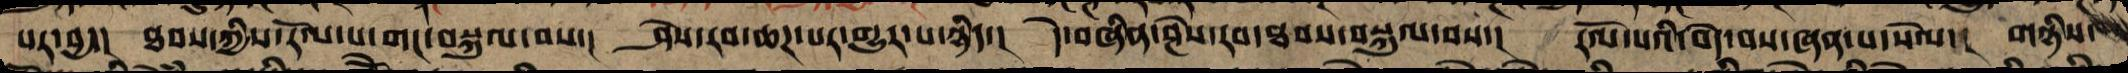པར་བྱ།    ཐབས་ཀྱིས་རོལ་པ་གང་བསྐུལ་བས།   ཤེས་རབ་ཆཌ་པར་གྱུར་པ་ཉིད།   དེ་བཞིན་ཤེས་རབ་ཐབས་བསྐུལ་བས།   རོལ་པའི་བདེ་བས་ཞན་པ་སེལ།   གཉིས་
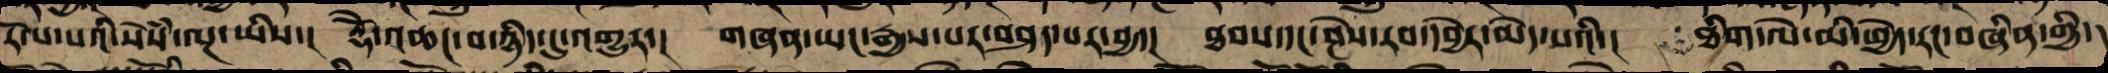རོལ་པའི་སེཾས་ལྔ་ཡིས་། རྡོེ་འཆང་བ་ཉིད་དུ་འགྱུར་། གཞན་ཡང་རྒྱས་པར་བཤད་པར་བྱ་། ཐབས་དང་ཤེས་རབ་དབྱེར་མེད་པའི་། ཐིག་ལེ་མི་ཕྱེད་རང་བཞིན་གྱི་།
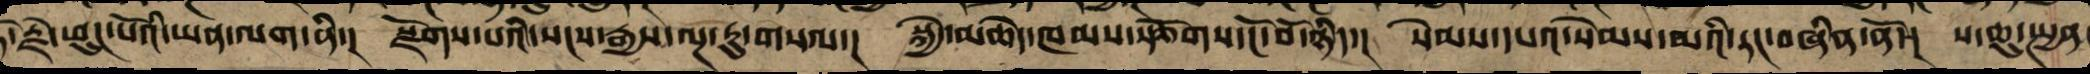རྡོ་རྗེ་ཕུང་པོའི་ཡན་ལག་ནི་། སྫོགས་པའི་སངས་རྒྱས་ལྔ་རུ་གསལ་། སྐྱེ་མཆེད་ཁམས་རྩོགས་ངོ་བོ་ཉིད་། སེམས་དཔའ་སེམས་མའི་རང་བཞིན་ནོ་། ས་ཆུ་སྤྱན་
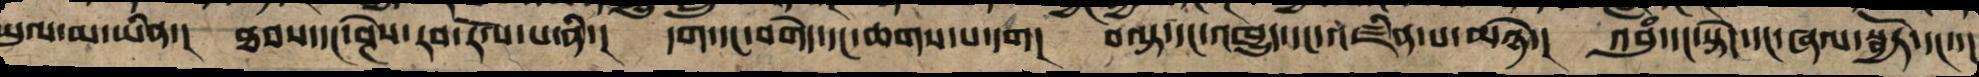ཡུལ་མ་ཡིན་། ཐབས་དང་ཤེས་རབ་རོལ་པ་ནི་། དགའ་དང་བགེཌ་དང་ཆགས་པ་དག།  བལྟ་དང་འཁྱུད་དང་འཛིན་པ་མཉེ་།  འབུཾ་དང་སྟེང་དང་ཞལ་སྦྱོར་དང་་།
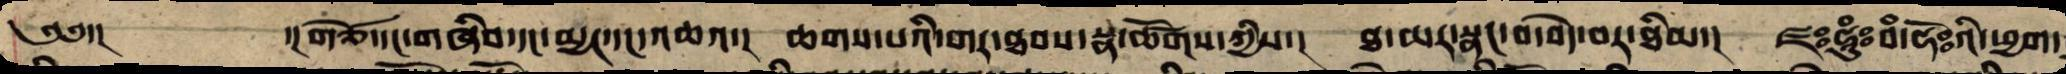༄༅་།  ་།གཙོ་དང་གཞིབ་དང་མྱང་དང་འཆའ་། ཆགས་པའི་གར་ཐབས་སྣ་ཚོགས་ཀྱིས་། ཐ་མལ་སྣང་བ་བདེ་བར་ཐིམ་། ཛཿཧཱུྃ་བཾ་ཧོཿའི་ཕྱག་
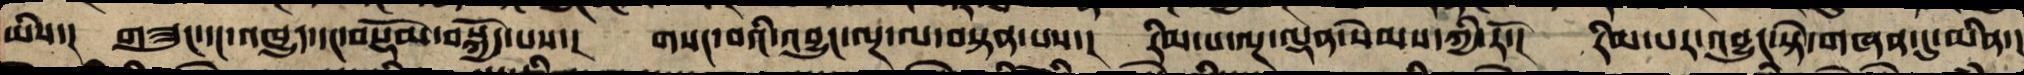ཡིས་། བཟུང་དང་འཁྱུད་དང་བསྡོམས་བསྐྱོད་པས་། གསང་བའི་འབྱུང་ལྔ་ལ་བརྟེན་པས་། རིམ་པ་ལྔ་ལྡན་སེམས་ཀྱི་རོ་། རིམ་པར་འབྱུང་སྟེ་གཞན་དུ་མིན་།
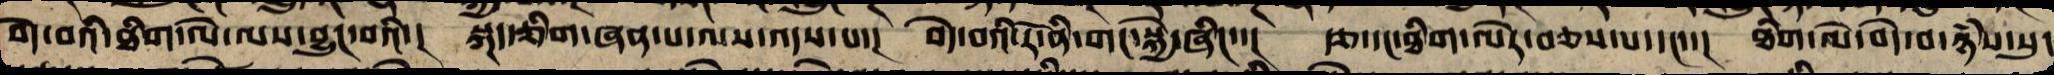བདེ་བའི་ཐིག་ལེ་ལས་བྱུང་བའི་། སྐད་ཅིག་ཞེན་པ་ལས་འདས་པ་། བདེ་བའི་རོ་ནི་གང་སྐྱེ་ཞིང་་། རྩ་དང་ཐིག་ལེར་བཅས་པ་དང་་། ཐིག་ལེའི་བདེ་བ་ཉཾས་སུ་
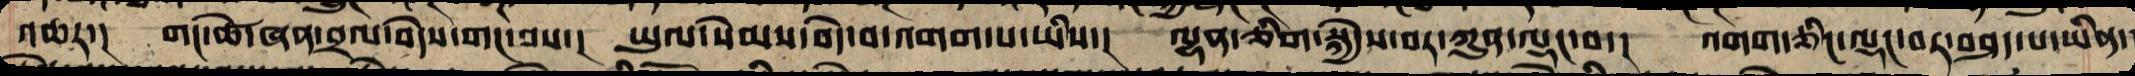འཆར་། གང་ཚེ་ཞེན་བྲལ་བདེས་གང་བས་། ཡུལ་སེམས་བདེ་བ་འགགས་པ་ཡིས་། ལྷན་ཅིག་སྐྱེས་པ་ཀུན་ལྡང་བ་། འགག་ཤིང་ལྡང་བར་བཤད་པ་ཡིན་།
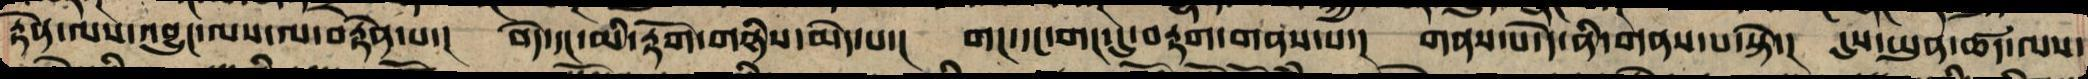རྟེན་ལས་འབྱུང་ལས་ལ་བརྟེན་པ་། བདེ་དང་མི་རྟོག་གཉིས་མེད་པ་། གང་དང་གང་དུ་རྟག་གནས་པ་། གནས་པས་དེ་ནི་གནས་པ་སྟེ་། དུས་ཡུན་ཚད་ལས་
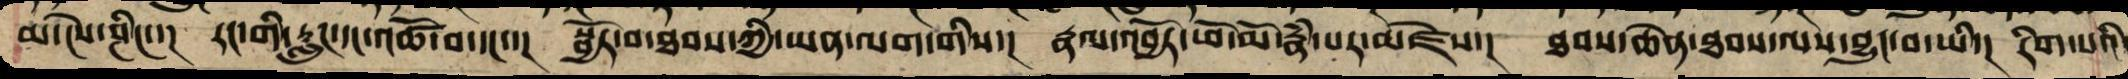མ་ངེས་ཤིང་་། རང་གི་རླུང་དང་འཚོ་བ་དང་་། སྦྱོར་བ་ཐབས་ཀྱི་ཡན་ལག་གིས་། རྣལ་འབྱོར་ཕོ་མོ་རྣཾ་པར་མཛེས་། ཐབས་ཆེན་ཐབས་ལས་བྱུང་བ་ཡི་། རིག་པའི་
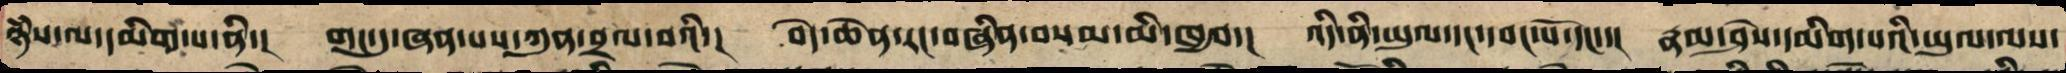ཉཾས་ལ་དམིགས་པ་ནི་། གང་དུ་ཞན་པ་ཀུན་བྲལ་བའི་། བདེ་ཆེན་རང་བཞིན་བསམ་མི་ཁྱབ་། འདི་ནི་ཡུལ་དང་དབང་པོ་དང་་། རྣམ་ཤེས་དམིག་པའི་ཡུལ་ལས་
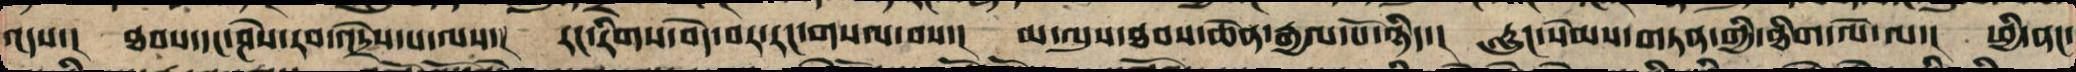འདས་། ཐབས་དང་ཤེས་རབ་འདྲེས་པ་ལས་། རང་རིག་བདེ་བར་ངང་གསལ་བས་། མ་ལུས་ཐབས་ཆེན་རྒྱལ་པོ་ཉིད་། རླུང་སེམས་རྟེན་གྱི་ཐིག་ལེ་ལ་། ཕྱི་ནང་
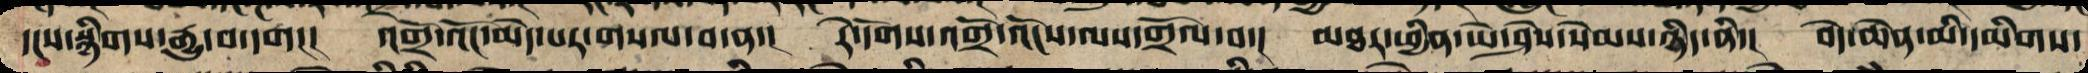དྭངས་སྙིགས་རྒྱུ་བ་དག།། འགྲོ་འོང་མེད་པར་གསལ་བ་ན་། རེ་དོགས་འགྲོ་འོང་ལས་གྲོལ་བ་། མཐར་ཕྱིན་ཡེ་ཤེས་སེམས་ཉིད་ནི་། བདེ་ཆེན་མི་དམིགས་
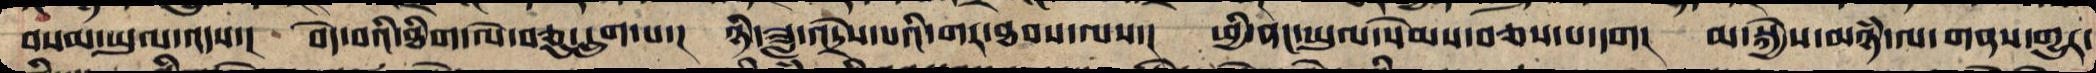བསམ་ཡུལ་འདས་། བདེ་བའི་ཐིག་ལེ་བཅུ་དྲུག་པ་། ཉི་ཟླ་འདྲེས་པའི་གར་ཐབས་ལས་། ཕྱི་ནང་ཡུལ་སེམས་བཅས་པ་དག། མ་སྐྱེས་མཉཾ་ལ་གནས་འགྱུར་
